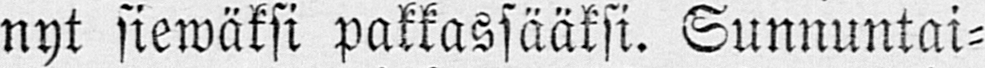nyt siewäksi pakkassääksi. Sunnuntai-
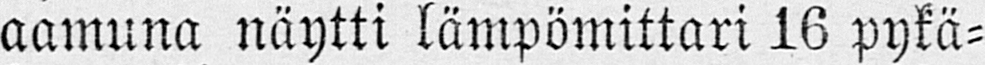aamuna näytti lämpömittari 16 pykä-
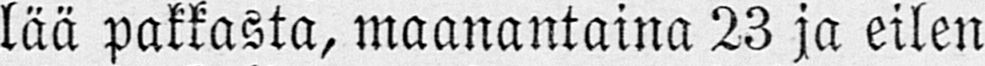lää pakkasta, maanantaina 23 ja eilen
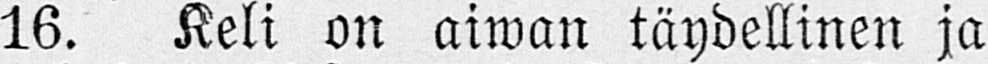16. Keli on aiwan täydellinen ja
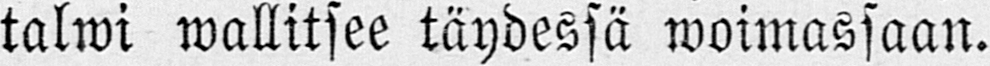talwi wallitsee täydessä woimassaan.
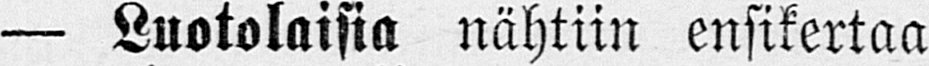— Luotolaisia nähtiin ensikertaa
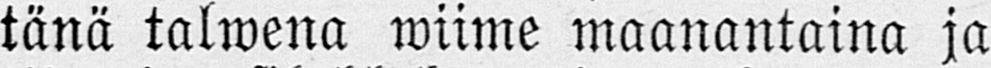tänä talwena wiime maanantaina ja
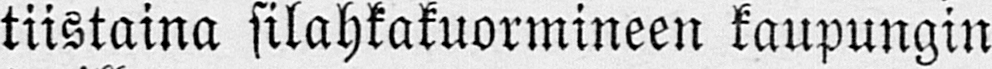tiistaina silahkakuormineen kaupungin
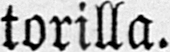torilla.
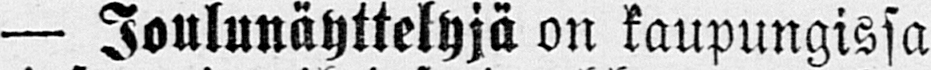— Joulunäyttelyjä on kaupungissa
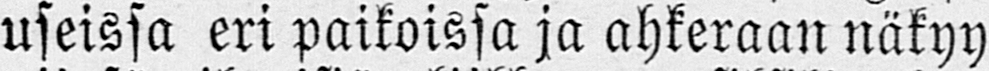useissa eri paikoissa ja ahkeraan näkyy
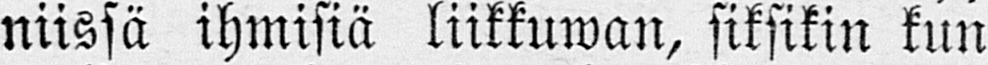niissä ihmisiä liikkuwan, siksikin kun
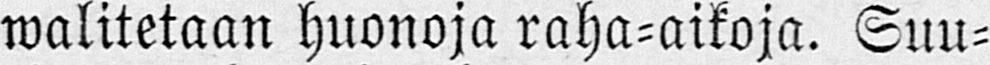walitetaan huonoja raha-aikoja. Suu-
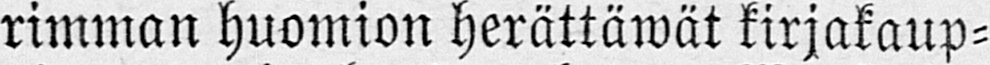rimman huomion herättäwät kirjakaup-
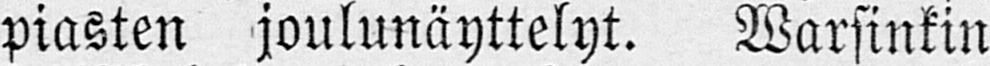piasten joulunäyttelyt. Warsinkin
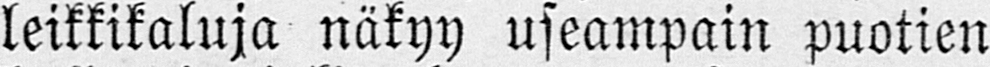leikkikaluja näkyy useampani puotien
